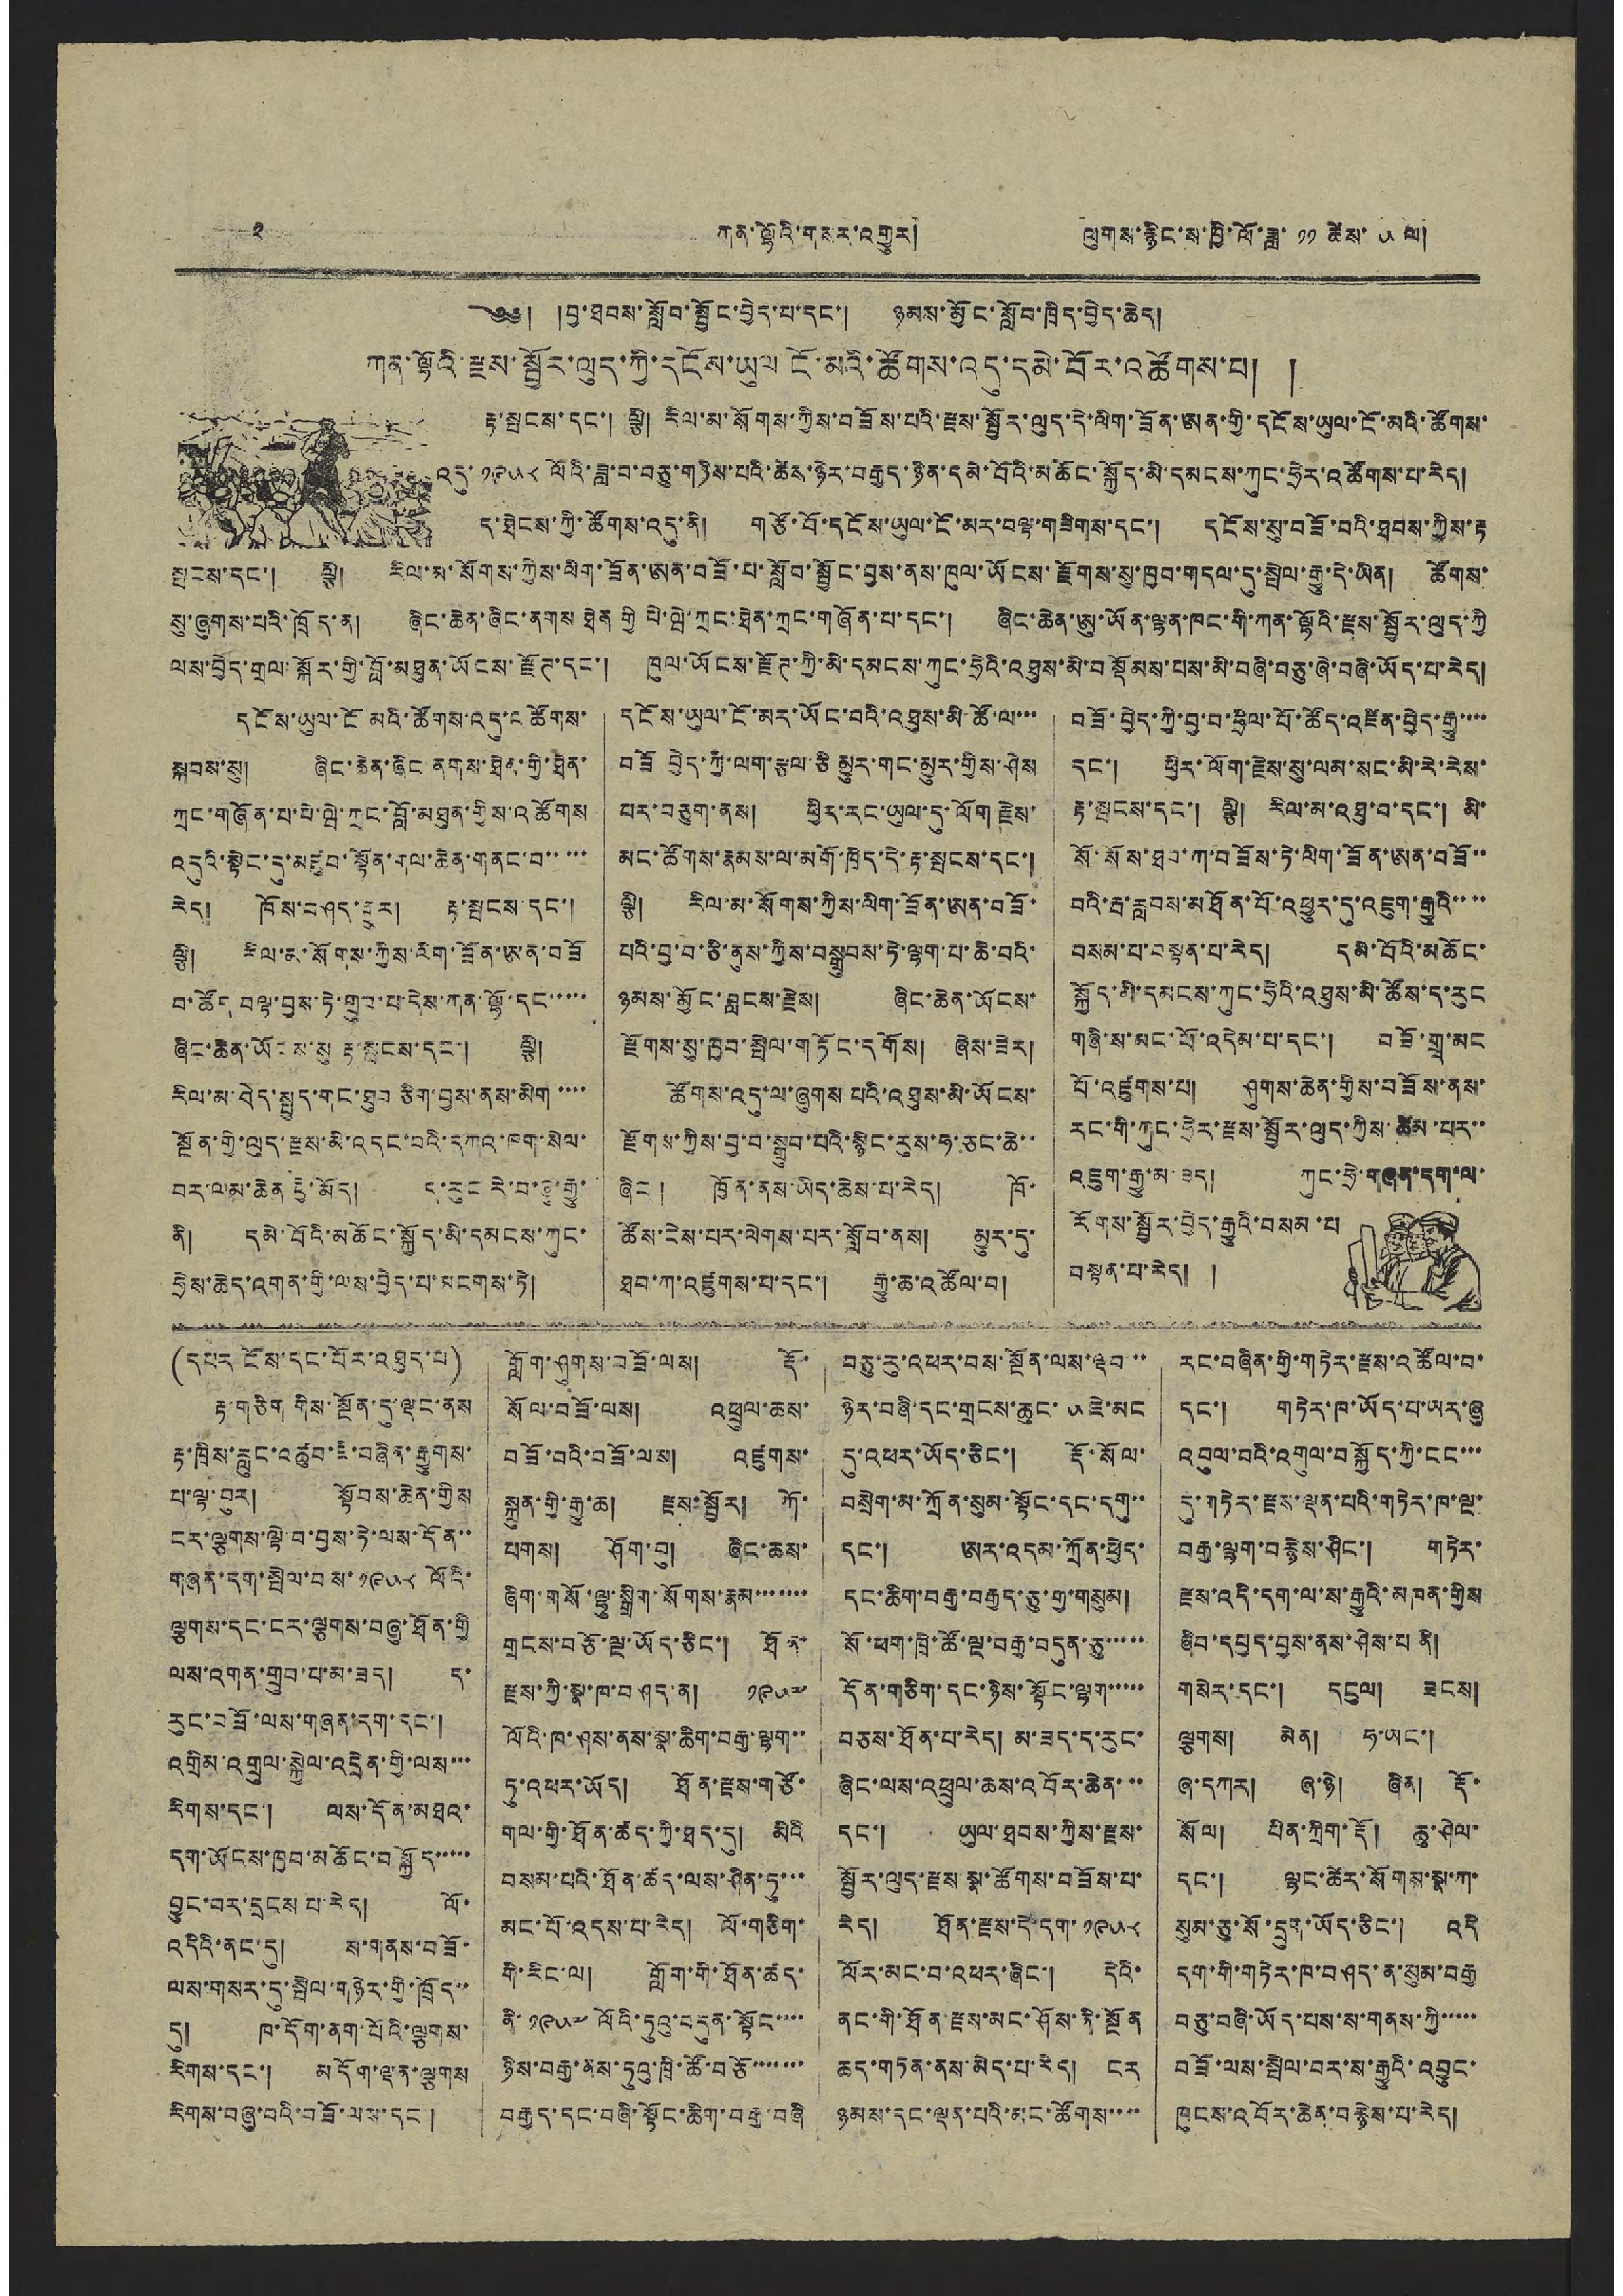༢ ཀན་ལྷོའི་གསར་འགྱུར། ལུགས་རྙིང་ས་ཁྱི་ལོ་ཟླ་ ༡༡ ཚེས་ ༥ ལ།
༄༅། །བྱ་ཐབས་སློབ་སྦྱོང་བྱེད་པ་དང་། ཉམས་མྱོང་སློབ་ཁྲིད་བྱེད་ཆེད།
ཀན་ལྷོའི་རྫས་སྦྱོར་ལུད་ཀྱི་དངོས་ཡུལ ངོ་མའི་ཚོགས་འདུ་དམེ་བོར་འཚོགས་པ། །
རྟ་སྤངས་དང་། ལྕི། རིལ་མ་སོགས་ཀྱིས་བཟོས་པའི་རྫས་སྦྱོར་ལུད་དེ་ལིག་ཟོན་ཨན་གྱི་དངོས་ཡུལ་ངོ་མའི་ཚོགས་
འདུ་ ༡༩༥༨ ལོའི་ཟླ་བ་བཅུ་གཉིས་པའི་ཚེས་ཉེར་བརྒྱད་ཉིན་དམེ་བོའི་མཆོང་སྐྱོད་མི་དམངས་ཀུང་ཧྲེར་འཚོགས་པ་རེད།
ད་ཐེངས་ཀྱི་ཚོགས་འདུ་ནི། གཙོ་བོ་དངོས་ཡུལ་ངོ་མར་བལྟ་གཟིགས་དང་། དངོས་སུ་བཟོ་བའི་ཐབས་ཀྱིས་རྟ
སྦངས་དང་། ལྕི། རིལ་མ་སོགས་ཀྱིས་ལིག་ཟོན་ཨན་བཟོ་པ་སློབ་སྦྱོང་བྱས་ནས་ཁུལ་ཡོངས་རྫོགས་སུ་ཁྱབ་གདལ་དུ་སྤེལ་རྒྱུ་དེ་ཡིན། ཚོགས་
སུ་ཞུགས་པའི་ཁྲོད་ན། ཞིང་ཆེན་ཞིང་ནགས ཐེན གྱི པེ་ཝེ་ཀྲང་ཐེན་ཀྲང་གཞོན་པ་དང་། ཞིང་ཆེན་ཨུ་ཡོན་ལྷན་ཁང་གི་ཀན་ལྷོའི་རྫས་སྦྱོར་ལུད་ཀྱི
ལས་བྱེད་གྲལ་སྐོར་གྱི་བློ་མཐུན་ཡོངས་རྫོཊ་དང་། ཁུལ་ཡོངས་རྫོཊ་ཀྱི་མི་དམངས་ཀུང་ཧྲིའི་འཐུས་མི་བསྡོམས་པས་མི་བཞི་བཅུ་ཞེ་བཞི་ཡོད་པ་རེད།
དངོས་ཡུལ་ངོ་མའི་ཚོགས་འདུ་འཚོགས་
སྐབས་སུ། ཞིང་ཆེན་ཞིང ནགས་ཐེན་གྱི་ཐེན་
ཀྲང་གཞོན་པ་པེ་ཝེ་ཀྲང་བློ་མཐུན་གྱིས་འཚོགས
འདུའི་སྟེང་དུ་མཛུབ་སྟོན་གལ་ཆེན་གནང་བ་་་་་
རེད། ཁོས་བཤད་གྱུར། རྟ་སྤངས་དང་།
ལྕི། རིལ་མ་སོགས་ཀྱིས་ལིག་ཟོན་ཨན་བཟོ
བ་ཚོད་བལྟ་བྱས་ཏེ་གྲུབ་པ་དེས་ཀན་ལྷོ་དང་་་་་
ཞིང་ཆེན་ཡོངས་སུ རྟ་སྦངས་དང་། ལྕི།
རིལ་མ་བེད་སྤྱད་གང་ཐུབ ཅིག་བྱས་ནས་མིག་་་་
སྔོན་གྱི་ལུད་རྫས་མི་འདང་བའི་དཀའ་ཁག་སེལ་
བར་ལམ་ཆེན ཕྱི་མོད། ད་རུང རེ་བ་ཞུ་རྒྱུ་
ནི། དམེ་བོའི་མཆོང་སྐྱོད་མི་དམངས་ཀུང་
ཧྲེས་ཆེད་འགན་གྱི་ལས་བྱེད་པ་མངགས་ཏེ།
དངོས་ཡུལ་ངོ་མར་ཡོང་བའི་འཐུས་མི་ཚོ་ལ་་་
བཟོ བྱེད་ཀྱི་ལག་རྩལ་ཅི མྱུར་གང་མྱུར་གྱིས་ཤེས
པར་བཅུག་ནས། ཕྱིར་རང་ཡུལ་དུ་ལོག རྗེས།
མང་ཚོགས་རྣམས་ལ་མགོ་ཁྲིད་དེ་རྟ་སྤངས་དང་།
ལྕི། རིལ་མ་སོགས་ཀྱིས་ལིག་ཟོན་ཨན་བཟོ་
པའི་བྱ་བ་ཅི་ནུས་ཀྱིས་བསྒྲུབས་ཏེ་ལྷག་པ་ཆེ་བའི
ཉམས་མྱོང་བླངས་རྗེས། ཞིང་ཆེན་ཡོངས་
རྫོགས་སུ་ཁྱབ་སྤེལ་གཏོང་དགོས། ཞེས་ཟེར།
ཚོགས་འདུ་ལ་ཞུགས པའི་འཐུས་མི་ཡོངས་
རྫོགས་ཀྱིས་བྱ་བ་སྒྲུབ་པའི་སྙིང་རུས་ཧ་ཅང་ཆེ་་
ཞིང ། ཁྱོན་ནས་ཡིད་ཆེས་པ་རེད། ཁོ
ཚོས་ངེས་པར་ལེགས་པར་སློབ་ནས། མྱུར་དུ་
ཐབ་ཀ་འཛུགས་པ་དང་། རྒྱུ་ཆ་འཚོལ་བ།
བཟོ་བྱེད་ཀྱི་བྱ་བ་ཧྲིལ་པོ་ཚོད་འཛིན་བྱེད་རྒྱུ་་་་
དང་། ཕྱིར་ལོག་རྗེས་སུ་ལམ་སང་མི་རེ་རེས་
རྟ་སྤངས་དང་། ལྕི། རིལ་མ་འཐུ་བ་དང་། མི་
སོ་སོས་ཐབ་ཀ་བཟོས་ཏེ་ལིག་ཟོན་ཨན་བཟོ་་
བའི་རྦ་རླབས་མཐོན་པོ་འཕྱུར་དུ་འཇུག་རྒྱུའི་་་་
བསམ་པ་བསྟན་པ་རེད། དམེ་བོའི་མཆོང་
སྐྱོད་མི་དམངས་ཀུང་ཧྲིའི་འཐུས་མི་ཚོས་ད་རུང
གཞི་ས་མང་པོ་འདེམ་པ་དང་། བཟོ་གྲྭ་མང
པོ་འཛུགས་པ། ཤུགས་ཆེན་གྱིས་བཟོས་ནས་
རང་གི་ཀུང་ཧྲེར་རྫས་སྦྱོར་ལུད་ཀྱིས་ཚིམ་པར་་
འཇུག་རྒྱུ་མ་ཟད། ཀུང་ཧྲེ་གཞན་དག་ལ་
རོགས་སྦྱོར་བྱེད་རྒྱུའི་བསམ་པ
བསྟན་པ་རེད། །
(དཔར་ངོས་དང་པོར་འཐུད་པ)
རྟ་གཅིག གིས་སྔོན་དུ་ལྡང་ནས
རྟ་ཁྲིས་རླུང་འཚུབ་ཇི་བཞིན་རྒྱུགས
པ་ལྟ་བུར། སྟོབས་ཆེན་གྱིས
ངར་ལྕགས་ལྟེ་བ་བྱས་ཏེ་ལས་དོན་་
གཞན་དག་སྤེལ་བས་ ༡༩༥༨ ལོའི་
ལྕགས་དང་ངར་ལྕགས་བཞུ་ཐོན་གྱི
ལས་འགན་གྲུབ་པ་མ་ཟད། ད
རུང་བཟོ་ལས་གཞན་དག་དང་།
འགྲིམ་འགྲུལ་སྐྱེལ་འདྲེན་གྱི་ལས་་་
རིགས་དང་། ལས་དོན་མཐའ་
དག་ཡོངས་ཁྱབ་མཆོང་བསྐྱོད་་་་་
བྱུང་བར་དྲངས་པ་རེད། ལོ
འདིའི་ནང་དུ། ས་གནས་བཟོ་
ལས་གསར་དུ་སྤེལ་གཉེར་གྱི་ཁྲོད་་
དུ། ཁ་དོག་ནག་པོའི་ལྕགས་
རིགས་དང་། མདོག་ལྡན་ལྕགས
རིགས་བཞུ་བའི་བཟོ་ལས་དང་།
གློག་ལུགས་བཟོ་ལས། རྡོ་
སོལ་བཟོ་ལས། འཕྲུལ་ཆས་
བཟོ་བའི་བཟོ་ལས། འཛུགས་
སྐྲུན་གྱི་རྒྱུ་ཆ། རྫས་སྦྱོར། ཀོ
པགས། ཤོག་བུ། ཞིང་ཆས་
ཞིག་གསོ་ལྷུ་སྒྲིག་སོགས་རྣམ་་་་་་
གྲངས་བཅོ་ལྔ་ཡོད་ཅིང་། ཐོན་
རྫས་ཀྱི་སྣ་ཁ་བཤད་ན། ༡༩༥༧
ལོའི་ཁ་ཤས་ནས་སྣ་ཆིག་བརྒྱ་ལྷག་
ཏུ་འཕར་ཡོད། ཐོན་རྫས་གཙོ་
གལ་གྱི་ཐོན་ཚད་ཀྱི་ཐད་དུ། མིའི་
བསམ་པའི་ཐོན་ཚད་ལས་ཤིན་ཏུ་་་
མང་པོ་འདས་པ་རེད། ལོ་གཅིག་
གི་རིང་ལ། གློག་གི་ཐོན་ཚད་
ནི་ ༡༩༥༧ ལོའི་ཏུའུ་བདུན་སྟོང་་་་
ཉིས་བརྒྱ་ནས་ཏུའུ་ཁྲི་ཚོ་བཅོ་་་་་་་
བརྒྱད་དང་བཞི་སྟོང་ཆིག་བརྒྱ་བཞི
བཅུ་རུ་འཕར་བས་སྔོན་ལས་ལྡབ་་
ཉེར་བཞི་དང་གྲངས་ཆུང་ ༥ ཇེ་མང
དུ་འཕར་ཡོད་ཅིང་། རྡོ་སོལ
བསྲེག་མ་ཀྲོན་སུམ་སྟོང་དང་དགུ་་
དང་། ཨར་འདམ་ཀྲོན་ཕྱེད་
དང་ཆིག་བརྒྱ་བརྒྱད་ཅུ་གྱ་གསུམ
སོ་ཕག་ཁྲི་ཚོ་ལྔ་བརྒྱ་བདུན་ཅུ་་་་་
དོན་གཅིག་དང་ཉིས་སྟོང་ལྷག་་་་་
བཅས་ཐོན་པ་རེད། མ་ཟད་ད་རུང་
ཞིང་ལས་འཕྲུལ་ཆས་འབོར་ཆེན་་་
དང་། ཡུལ་ཐབས་ཀྱིས་རྫས་
སྦྱོར་ལུད་རྫས་སྣ་ཚོགས་བཟོས་པ
རེད། ཐོན་རྫས་དེ་དག་ ༡༩༥༨
ལོར་མང་བ་འཕར་ཞིང་། དེའི
ནང་གི་ཐོན་རྫས་མང་ཤོས་ནི་སྔོན
ཆད་གཏན་ནས་མེད་པ་རེད། ངར
ཉམས་དང་ལྡན་པའི་མང་ཚོགས་་་་
རང་བཞིན་གྱི་གཏེར་རྫས་འཚོལ་བ་
དང་། གཏེར་ཁ་ཡོད་པ་ཡར་ཞུ
འབུལ་བའི་འགུལ་བསྐྱོད་ཀྱི་ངང་་་
དུ་གཏེར་རྫས་ལྡན་པའི་གཏེར་ཁ་ལྔ་
བརྒྱ་ལྷག་བརྙེས་ཤིང་། གཏེར་
རྫས་འདི་དག་ལ་ས་རྒྱུའི་མཁན་གྱིས
ཞིབ་དཔྱད་བྱས་ནས་ཤེས་པ ནི།
གསེར་དང་། དངུལ། ཟངས།
ལྕགས། མེན། ཧ་ཡང་།
ཞ་དཀར། ཞ་ཉེ། ཞིན། རྡོ་
སོལ། པིན་ཀྲིག་རྡོ། ཆུ་ཤེལ་
དང་། ལྷང་ཚེར་སོགས་སྣ་ཀ་
སུམ་ཅུ་སོ་དྲུག་ཡོད་ཅིང་། འདི
དག་གི་གཏེར་ཁ་བཤད་ན་སུམ་བརྒྱ
བཅུ་བཞི་ཡོད་པས་ས་གནས་ཀྱི་་་་་
བཟོ་ལས་སྤེལ་བར་ས་རྒྱུའི་འབྱུང་
ཁུངས་འབོར་ཆེན་བརྙེས་པ་རེད།
